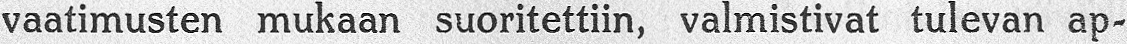vaatimusten mukaan suoritettiin, valmistivat tulevan ap-
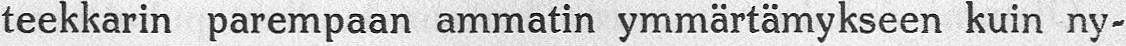teekkarin parempaan ammatin ymmärtämykseen kuin ny-
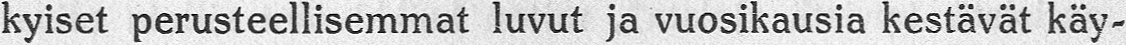kyiset perusteellisemmat luvut ja vuosikausia kestävät käy-
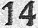14
